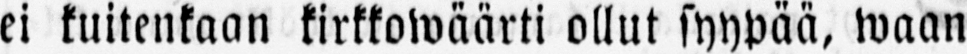ei kuitenkaan kirkkowäärti ollut syypää, waan
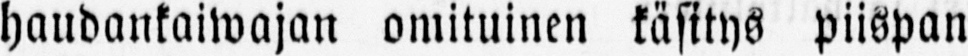haudankaiwajan omituinen käsitys piispan
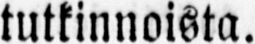tutkinnoista.
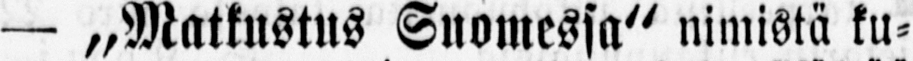— „Matkustus Suomessa" nimistä ku-
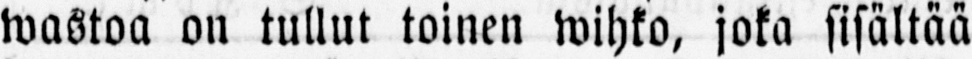wastoa on tullut toinen wihko, joka sisältää
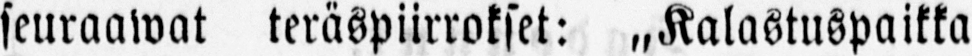seuraawat teräspiirrokset: „Kalastuspaikka
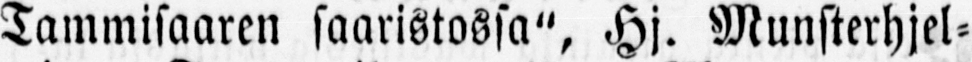Tammisaaren saaristossa", Hj. Munsterhjel-
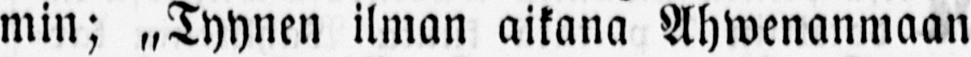min; „Tyynen ilman aikana Ahwenanmaan
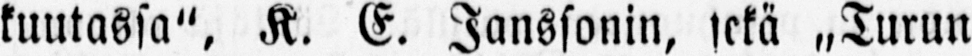kuutassa", K. E. Janssonin, sekä „Turun
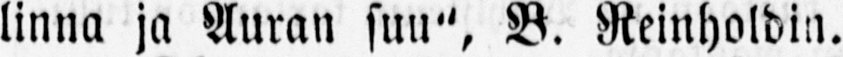linna ja Auran suu", B. Reinholdin.
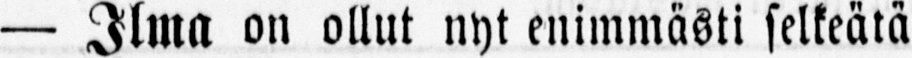— Ilma on ollut nyt enimmästi selkeätä
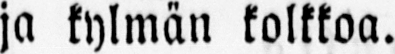ja kylmän kolkkoa.
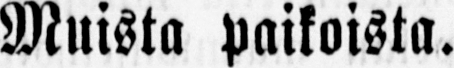Muista paikoista.
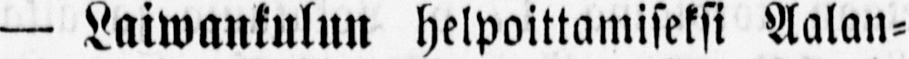— Laiwankulun helpoittamiseksi Aalan-
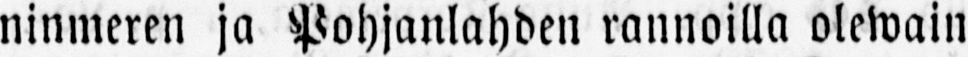ninmeren ja Pohjanlahden rannoilla olewain
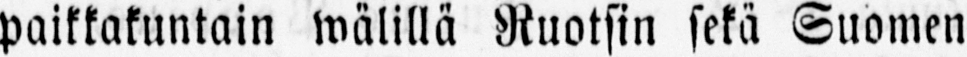paikkakuntain wälillä Ruotsin sekä Suomen
